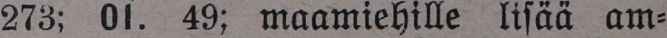273; 01. 49; maamiehille lisää am-
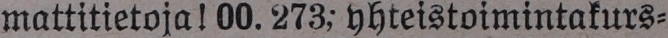mattitietoja! 00. 273; yhteistoimintakurs-
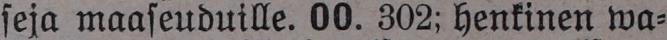seja maaseuduille. 00. 302; henkinen wa-
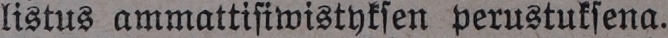listus ammattisiwistyksen perustuksena.
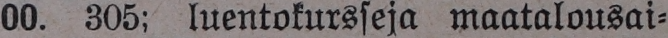00. 305; luentokursseja maatalousai-
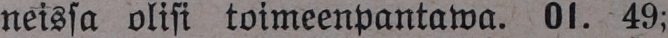neissa olisi toimeenpantawa. 01. 49;
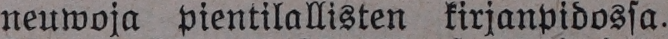neuwoja pientilallisten kirjanpidossa.
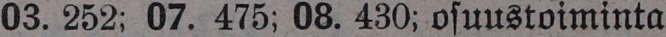03. 252; 07. 475; 08. 430; osuustoiminta
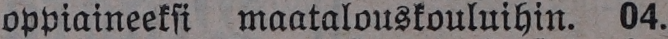oppiaineeksi maatalouskouluihin. 04.
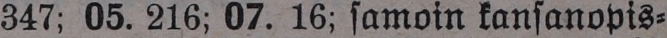347; 05. 216; 07. 16; samoin kansanopis-
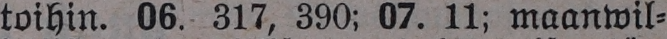toihin. 06. 317, 390: 07. 11; maanwil-
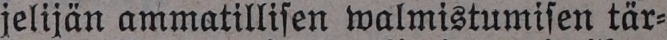jelijän ammatillisen walmistumisen tär-
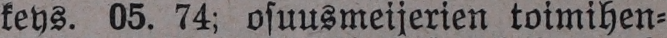keys. 05. 74; osuusmeijerien toimihen-
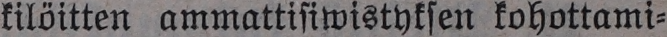kilöitten ammattisiwistyksen kohottami-
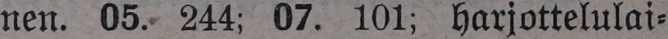nen. 05. 244; 07. 101; harjottelulai-
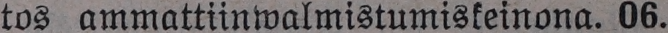tos ammattiinwalmistumiskeinona. 06.
